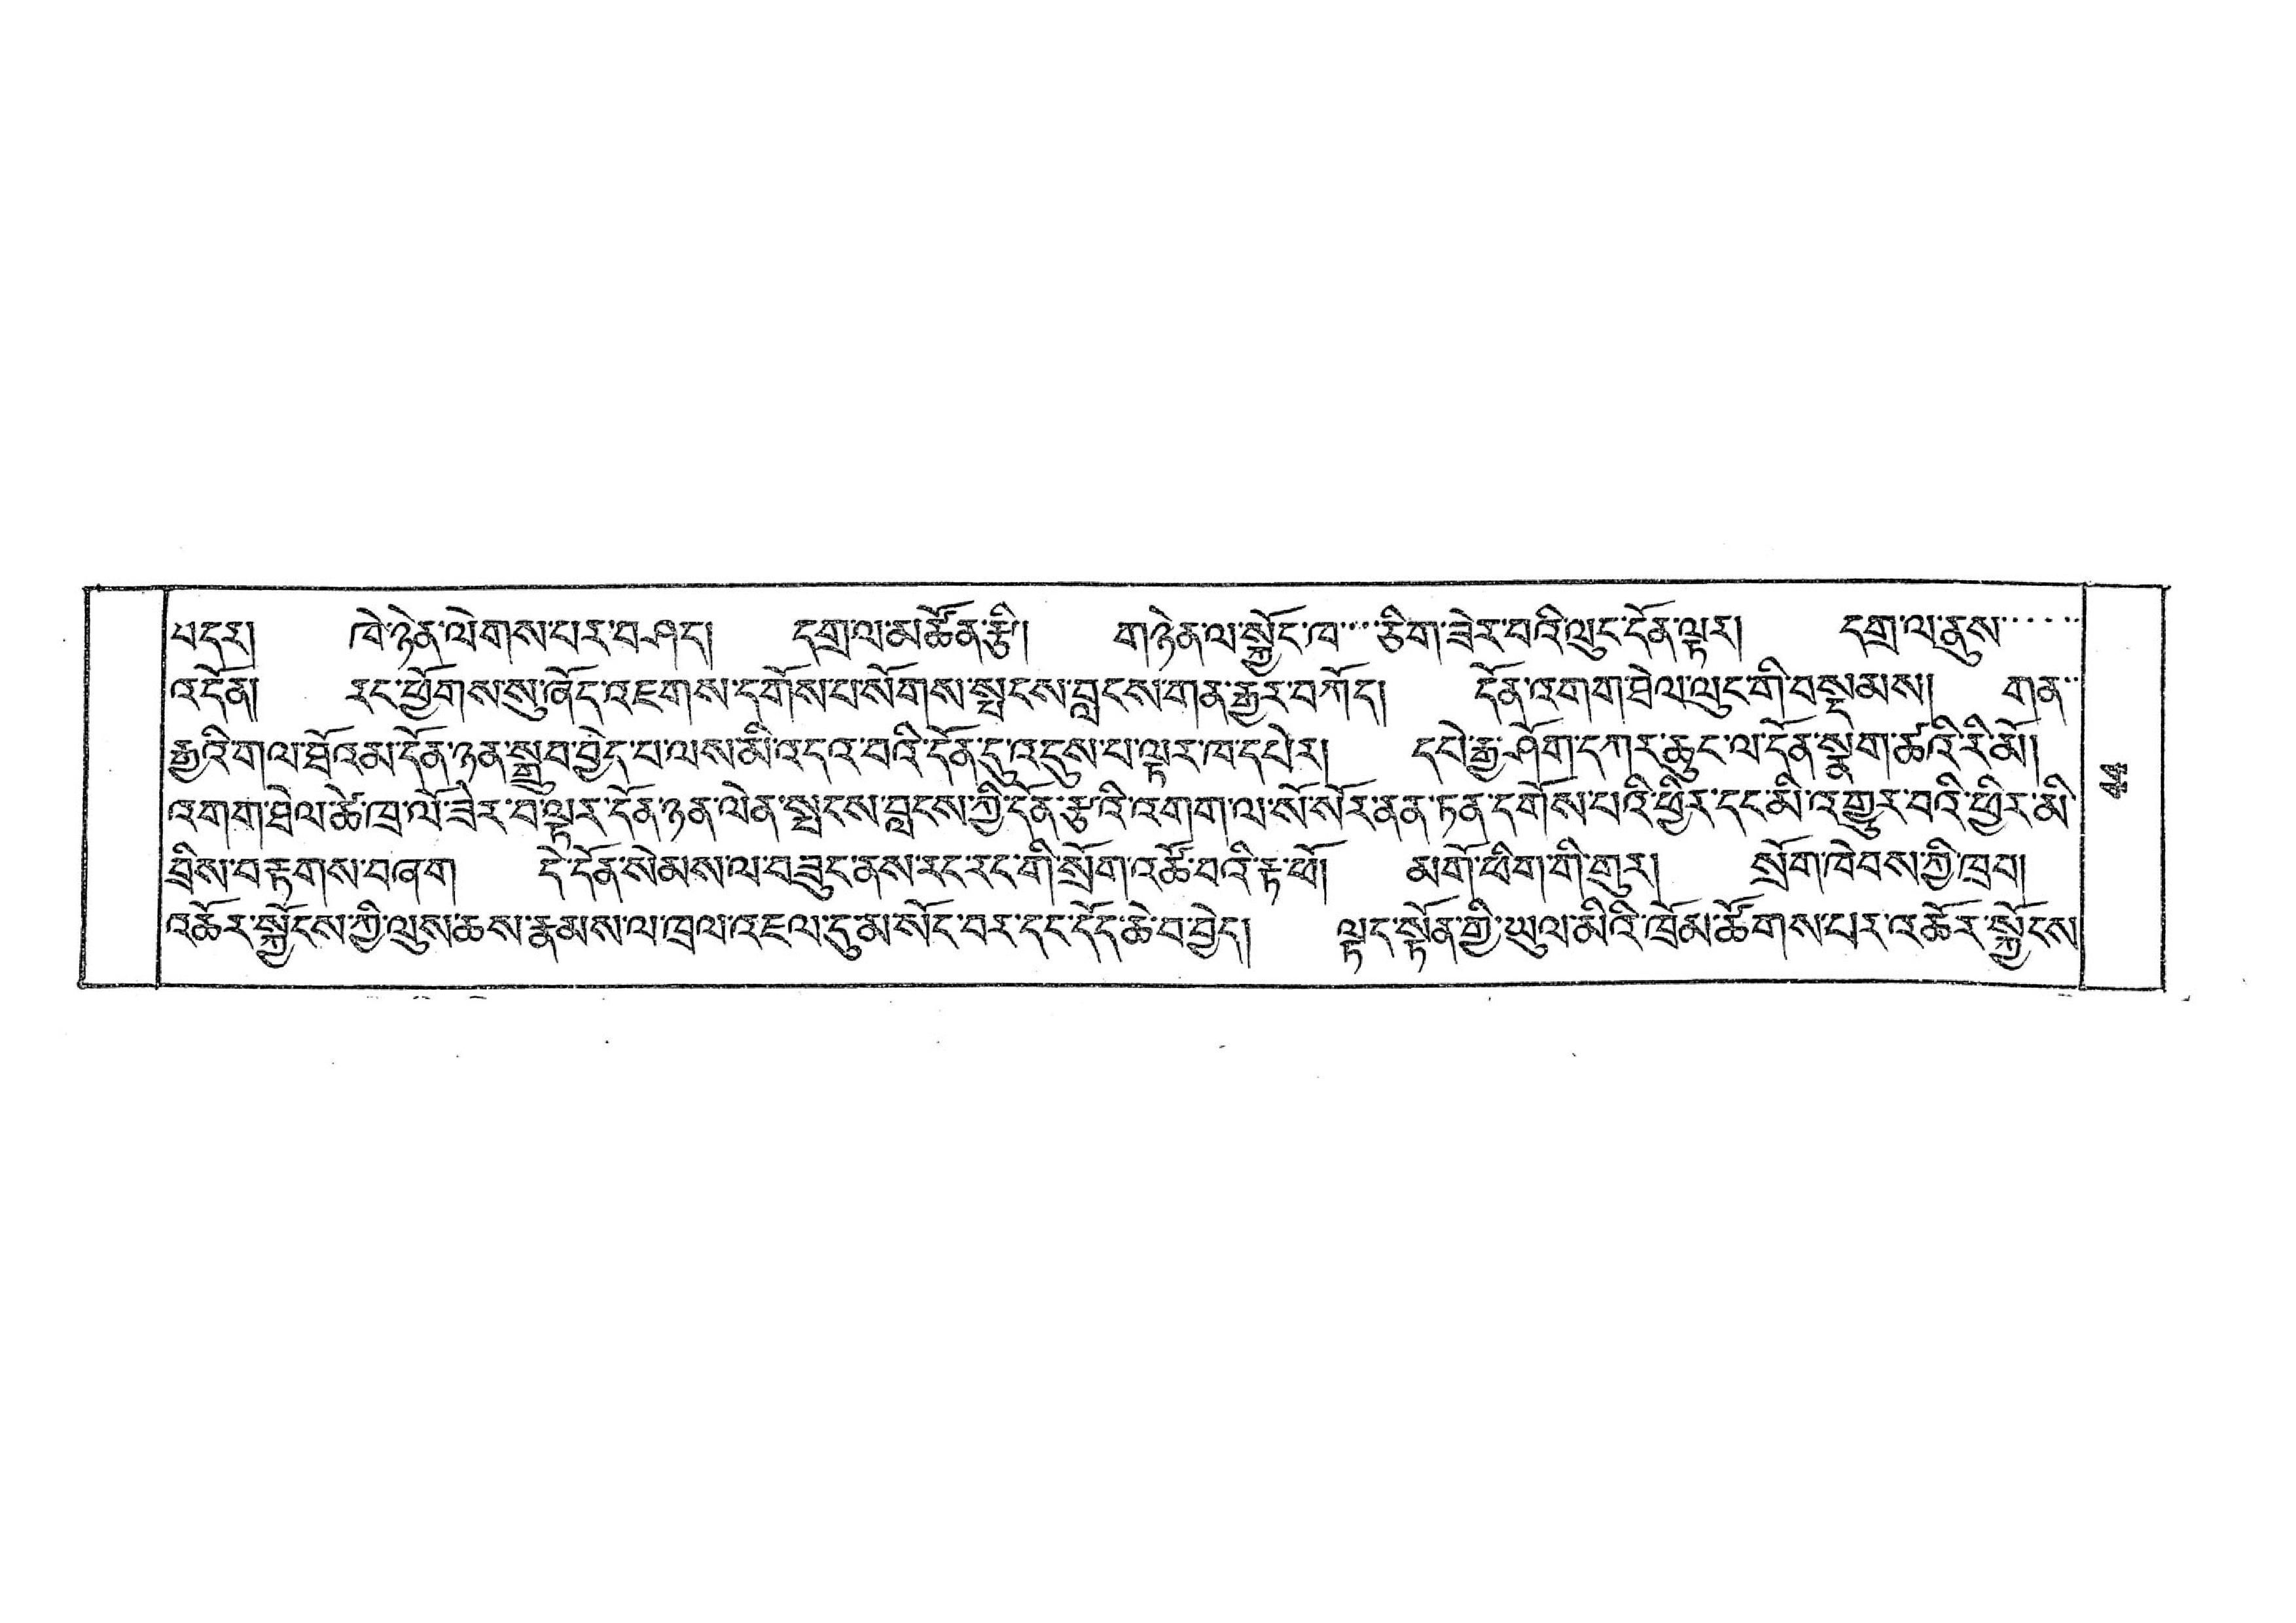པ་དར། ཁེ་ཉེན་ལེགས་པར་བཤད། དགྲ་ལ་མཚོན་རྩི། གཉེན་ལ་སྐྱོང་ཁ་་་ཅིག་ཟེར་བའི་ལུང་དོན་ལྟར། དགྲ་ལ་ནུས་་་་་
འདོན། རང་ཕྱོགས་སུ་ཞོད་འཇགས་དགོས་པ་སོགས་སྤངས་བླངས་གན་རྒྱར་བཀོད། དོན་འགག་ཐེལ་ལུང་གི་བསྡམས། གན་་
རྒྱའི་གལ་ཐོའམ་དོན་ཉན་སྒྲུབ་བྱེད་པ་ལས་མི་འདའ་བའི་དོན་དུ་འདུས་པ་ལྟར་ཁ་དཔེར། དཔེ་རྒྱ་ཤོག་དཀར་ཆུང་ལ་དོན་སྣག་ཚའི་རི་མོ།
འགག་ཐེལ་ཚེ་ཁྲ་ལོ་ཟེར་བ་ལྟར་དོན་ཉན་ལེན་སྤངས་བླངས་ཀྱི་དོན་རྩའི་འགག་ལ་སོ་སོར་ནན་ཏན་དགོས་པའི་ཕྱིར་དང་མི་འགྱུར་བའི་ཕྱིར་མ་
བྲིས་བརྟགས་བཞག དེ་དོན་སེམས་ལ་བཟུང་ནས་རང་རང་གི་སྲོག་འཚོ་བའི་རྟ་ཕོ། མགོ་ཕིག་གི་གུར། སྲོག་ཁེབས་ཀྱི་ཁྲབ།
འཚོར་སྐྱོངས་ཀྱི་ལུས་ཆས་རྣམས་ལ་ཁྲལ་འཇལ་དུ་མ་སོང་བར་དང་དོད་ཆེ་བ་བྱེད། ལྟད་སྟོན་གྱི་ཡུལ་མིའི་ཁྲོམ་ཚོགས་པར་འཚོར་སྐྱོངས་
